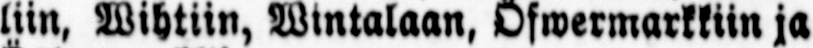liin, Wihtiin, Wintalaan, Öswermarkkiin ja
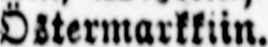Östermarkkiin.
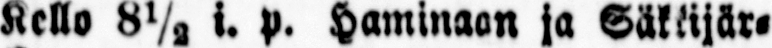kello 8½ i. p. Haminaan ja Säkkijär-
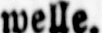welle.
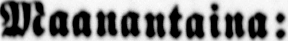Maanantaina:
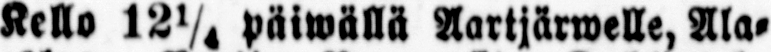Kello 12¼ päiwällä Aartjärwelle, Ala-
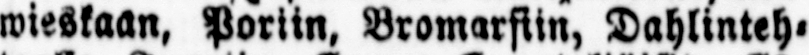wieskaan, Poriin, Bromarsiin, Dahlinteh-
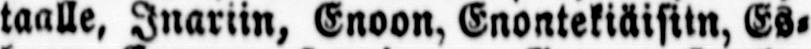taalle, Inariin, Enoon, Enontekiäisiin, Es-
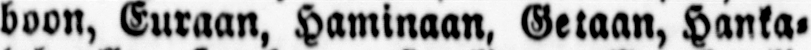boon, Euraan, Haminaan, Getaan, Hanka-
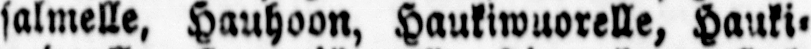salmelle, Hauhoon, Hausiwuorelle, Hauki-
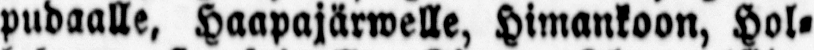pudaalle. Haapajärwelle, Himankoon, Hol-
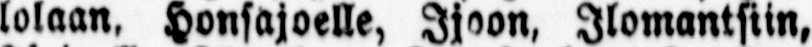lolaan, Honsajoelle, Ijoon, Ilomantsiin,
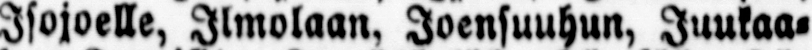Isojoelle, Ilmolaan, Joensuuhun, Juukaa-
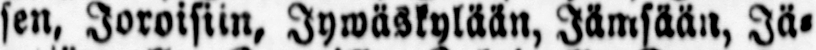sen, Joroisiin, Jywäskylään, Jämsään, Jä-
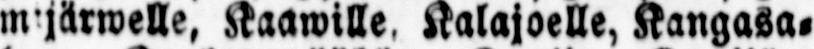mijärwelle, Kaawille, Kalajoelle, Kangasa-
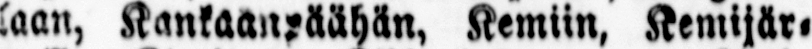laan, Kankaanpäähän, Kemiin, Kemijär-
